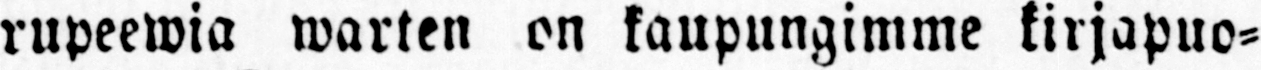rupeewia warten on kaupungimme kirjapuo-
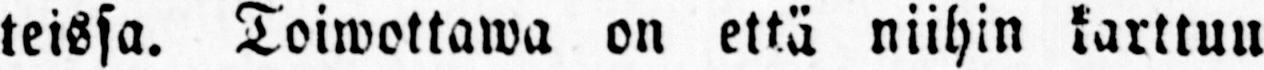teissa. Toiwottawa on että niihin karttuu
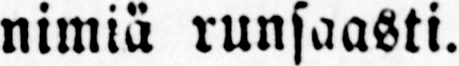nimiä runsaasti.
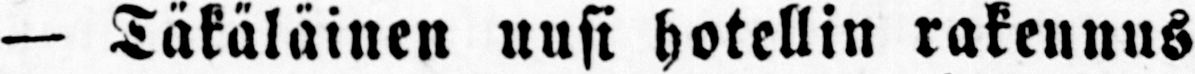— Täkäläinen uusi hotellin rakennus
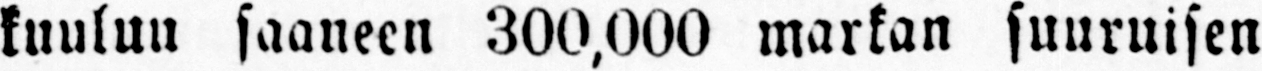kuuluu saaneen 300.000 markan suuruisen
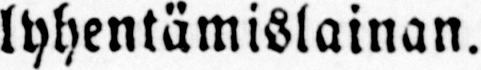lyhentämislainan.
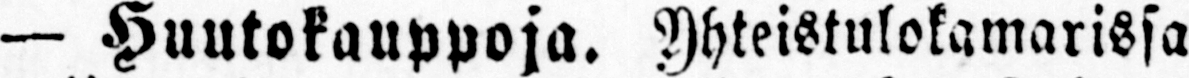— Huutokauppoja. Yhteistulokamarissa
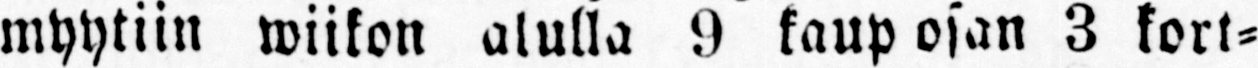myytiin wiikon alulla 9 kaup osan 3 kort-
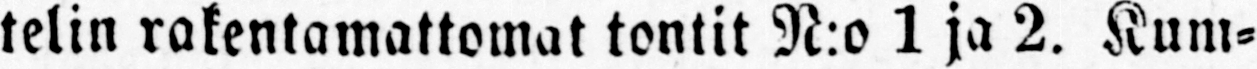telin rakentamattomat tontit N:o 1 ja 2. Kum-
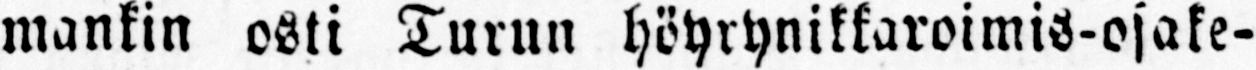mankin osti Turun höyrynikkaroimis-osake-
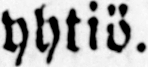yhtiö.
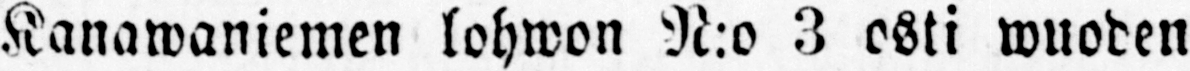Kanawaniemen lohwon N:o 3 osti wuoden
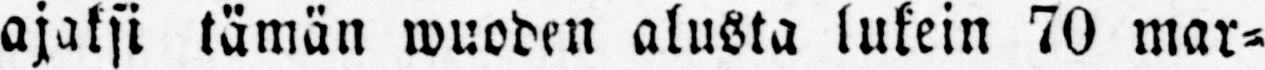ajaksi tämän wuoden alusta lukein 70 mar-
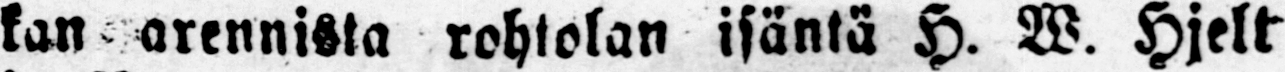kan arennista rohtolan isäntä H. W. Hjelt
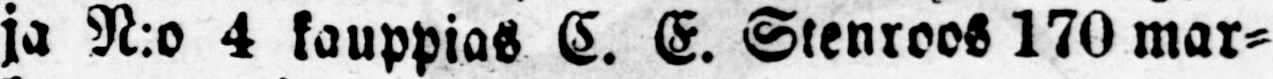ja N:o 4 kauppias C. E. Stenroos 170 mar-
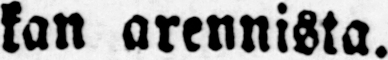kan arennista.
